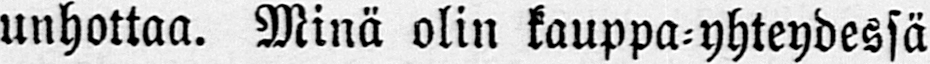unhottaa. Minä olin kauppa-yhteydessä
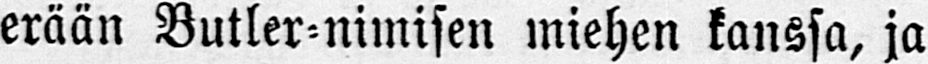erään Butler-nimisen miehen kanssa, ja
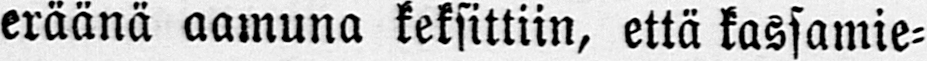eräänä aamuna keksittiin, että kassamie-
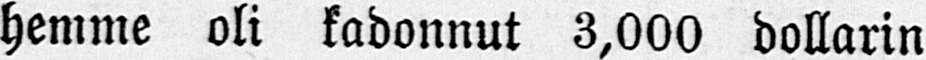hemme oli kadonnut 3,000 dollarin
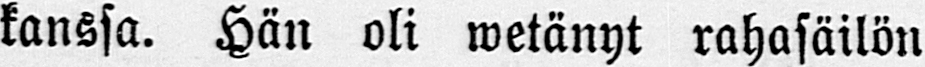kanssa. Hän oli wetänyt rahasäilön
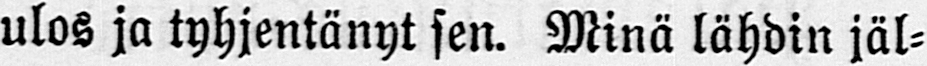ulos ja tyhjentänyt sen. Minä lähdin jäl-
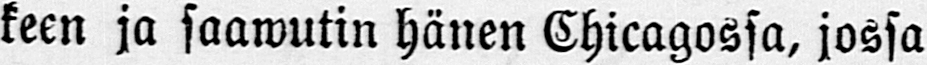keen ja saawutin hänen Chicagossa, jossa
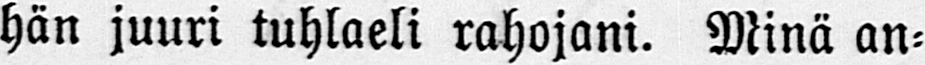hän juuri tuhlaeli rahojani. Minä an-
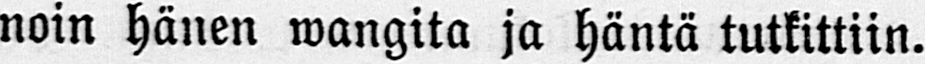noin hänen wangita ja häntä tutkittiin.
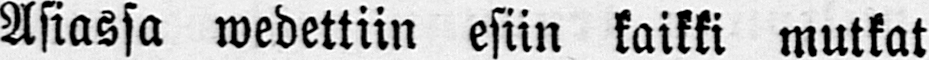Asiassa wedettiin esiin kaikki mutkat
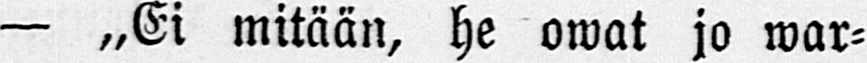— „Ei mitään, he owat jo war-
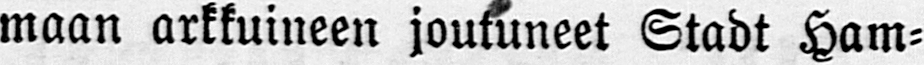maan arkkuineen joutuneet Stadt Ham-
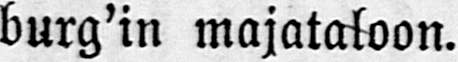burg'in majataloon.
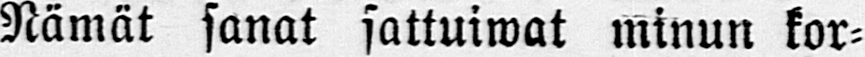Nämät sanat sattuiwat minun kor-
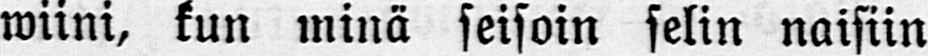wiini, kun minä seisoin selin naisiin
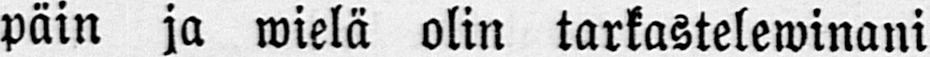päin ja wielä olin tarkastelewinani
